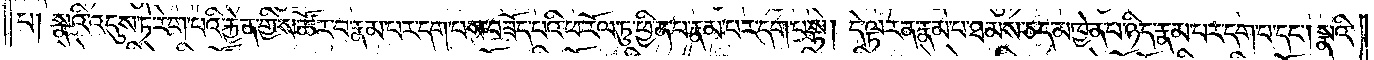པ། སྣའི་འདུས་ཏེ་རེག་པའི་རྐྱེན་གྱིས་ཚོར་བ་རྣམ་པར་དག་པས་བཟོད་པའི་ཕ་རོལ་ཏུ་ཕྱིན་པ་རྣམ་པར་དག་པ་སྟེ། དེ་ལྟར་ན་རྣམ་པ་ཐམས་ཅད་མཁྱེན་པ་ཉིད་རྣམ་པར་དག་པ་དང༌། སྣའི་
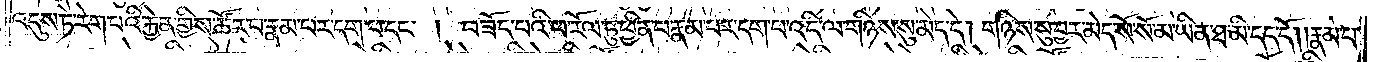འདུས་ཏེ་རེག་པའི་རྐྱེན་གྱིས་ཚོར་བ་རྣམ་པར་དག་པ་དང༌། བཟོད་པའི་ཕ་རོལ་ཏུ་ཕྱིན་པ་རྣམ་པར་དག་པ་འདི་ལ་གཉིས་སུ་མེད་དེ། གཉིས་སུ་བྱར་མེད་སོ་སོ་མ་ཡིན་ཐ་མི་དད་དོ། །རྣམ་པ་
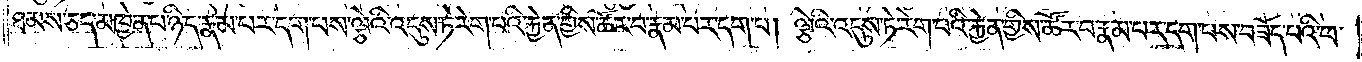ཐམས་ཅད་མཁྱེན་པ་ཉིད་རྣམ་པར་དག་པས་ལྕེའི་འདུས་ཏེ་རེག་པའི་རྐྱེན་གྱིས་ཚོར་བ་རྣམ་པར་དག་པ། ལྕེའི་འདུས་ཏེ་རེག་པའི་རྐྱེན་གྱིས་ཚོར་བ་རྣམ་པར་དག་པས་བཟོད་པའི་ཕ་
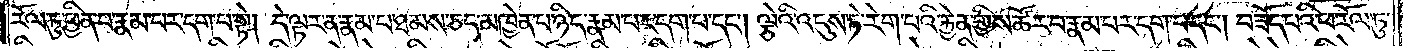རོལ་ཏུ་ཕྱིན་པ་རྣམ་པར་དག་པ་སྟེ། དེ་ལྟར་ན་རྣམ་པ་ཐམས་ཅད་མཁྱེན་པ་ཉིད་རྣམ་པར་དག་པ་དང༌། ལྕེའི་འདུས་ཏེ་རེག་པའི་རྐྱེན་གྱིས་ཚོར་བ་རྣམ་པར་དག་པ་དང༌། བཟོད་པའི་ཕ་རོལ་ཏུ་
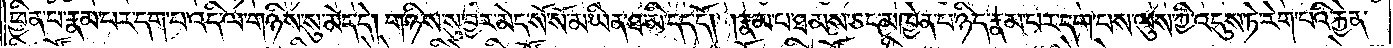ཕྱིན་པ་རྣམ་པར་དག་པ་འདི་ལ་གཉིས་སུ་མེད་དེ། གཉིས་སུ་བྱར་མེད་སོ་སོ་མ་ཡིན་ཐ་མི་དད་དོ། །རྣམ་པ་ཐམས་ཅད་མཁྱེན་པ་ཉིད་རྣམ་པར་དག་པས་ལུས་ཀྱི་འདུས་ཏེ་རེག་པའི་རྐྱེན་
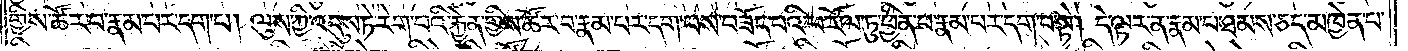གྱིས་ཚོར་བ་རྣམ་པར་དག་པ། ལུས་ཀྱི་འདུས་ཏེ་རེག་པའི་རྐྱེན་གྱིས་ཚོར་བ་རྣམ་པར་དག་པས་བཟོད་པའི་ཕ་རོལ་ཏུ་ཕྱིན་པ་རྣམ་པར་དག་པ་སྟེ། དེ་ལྟར་ན་རྣམ་པ་ཐམས་ཅད་མཁྱེན་པ་
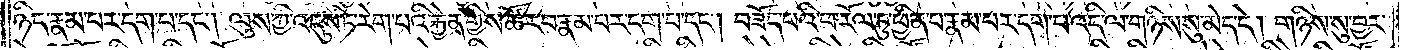ཉིད་རྣམ་པར་དག་པ་དང༌། ལུས་ཀྱི་འདུས་ཏེ་རེག་པའི་རྐྱེན་གྱིས་ཚོར་བ་རྣམ་པར་དག་པ་དང༌། བཟོད་པའི་ཕ་རོལ་ཏུ་ཕྱིན་པ་རྣམ་པར་དག་པ་འདི་ལ་གཉིས་སུ་མེད་དེ། གཉིས་སུ་བྱར་
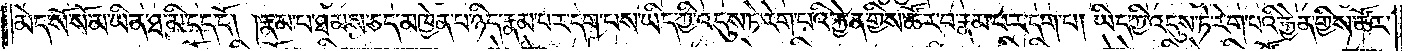མེད་སོ་སོ་མ་ཡིན་ཐ་མི་དད་དོ། །རྣམ་པ་ཐམས་ཅད་མཁྱེན་པ་ཉིད་རྣམ་པར་དག་པས་ཡིད་ཀྱི་འདུས་ཏེ་རེག་པའི་རྐྱེན་གྱིས་ཚོར་བ་རྣམ་པ་དག་པ། ཡིད་ཀྱི་འདུས་ཏེ་རེག་པའི་རྐྱེན་གྱིས་ཚོར་
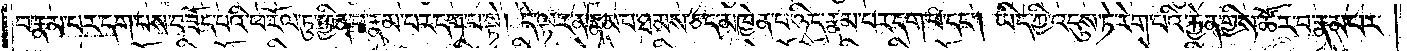བ་རྣམ་པར་དག་པས་བཟོད་པའི་ཕ་རོལ་ཏུ་ཕྱིན་པ་རྣམ་པར་དག་པ་སྟེ། དེ་ལྟར་ན་རྣམ་པ་ཐམས་ཅད་མཁྱེན་པ་ཉིད་རྣམ་པར་དག་པ་དང༌། ཡིད་ཀྱི་འདུས་ཏེ་རེག་པའི་རྐྱེན་གྱིས་ཚོར་བ་རྣམ་པར་
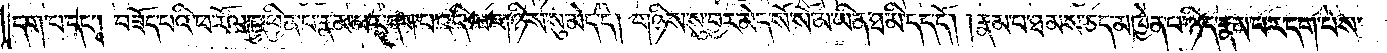དག་པ་དང༌། བཟོད་པའི་ཕ་རོལ་ཏུ་ཕྱིན་པ་རྣམ་པར་དག་པ་འདི་ལ་གཉིས་སུ་མེད་དེ། གཉིས་སུ་བྱར་མེད་སོ་སོ་མ་ཡིན་ཐ་མི་དད་དོ། །རྣམ་པ་ཐམས་ཅད་མཁྱེན་པ་ཉིད་རྣམ་པར་དག་པས་
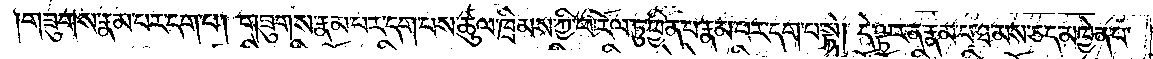གཟུགས་རྣམ་པར་དག་པ། གཟུགས་རྣམ་པར་དག་པས་ཚུལ་ཁྲིམས་ཀྱི་ཕ་རོལ་ཏུ་ཕྱིན་པ་རྣམ་པར་དག་པ་སྟེ། དེ་ལྟར་ན་རྣམ་པ་ཐམས་ཅད་མཁྱེན་པ་
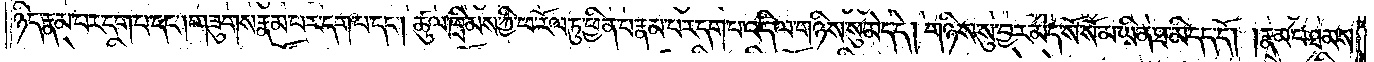ཉིད་རྣམ་པར་དག་པ་དང༌། གཟུགས་རྣམ་པར་དག་པ་དང༌། ཚུལ་ཁྲིམས་ཀྱི་ཕ་རོལ་ཏུ་ཕྱིན་པ་རྣམ་པར་དག་པ་འདི་ལ་གཉིས་སུ་མེད་དེ། གཉིས་སུ་བྱར་མེད་སོ་སོ་མ་ཡིན་ཐ་མི་དད་དོ། །རྣམ་པ་ཐམས་
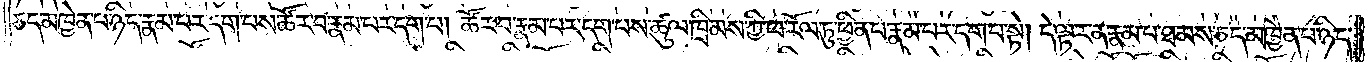ཅད་མཁྱེན་པ་ཉིད་རྣམ་པར་དག་པས་ཚོར་བ་རྣམ་པར་དག་པ། ཚོར་བ་རྣམ་པར་དག་པས་ཚུལ་ཁྲིམས་ཀྱི་ཕ་རོལ་ཏུ་ཕྱིན་པ་རྣམ་པར་དག་པ་སྟེ། དེ་ལྟར་ན་རྣམ་པ་ཐམས་ཅད་མཁྱེན་པ་ཉིད་
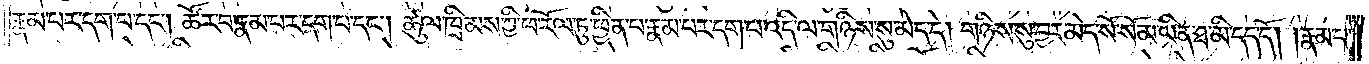རྣམ་པར་དག་པ་དང༌། ཚོར་བ་རྣམ་པར་དག་པ་དང༌། ཚུལ་ཁྲིམས་ཀྱི་ཕ་རོལ་ཏུ་ཕྱིན་པ་རྣམ་པར་དག་པ་འདི་ལ་གཉིས་སུ་མེད་དེ། གཉིས་སུ་བྱར་མེད་སོ་སོ་མ་ཡིན་ཐ་མི་དད་དོ། །རྣམ་པ་
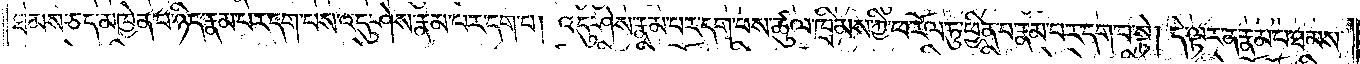ཐམས་ཅད་མཁྱེན་པ་ཉིད་རྣམ་པར་དག་པས་འདུ་ཤེས་རྣམ་པར་དག་པ། འདུ་ཤེས་རྣམ་པར་དག་པས་ཚུལ་ཁྲིམས་ཀྱི་ཕ་རོལ་ཏུ་ཕྱིན་པ་རྣམ་པར་དག་པ་སྟེ། དེ་ལྟར་ན་རྣམ་པ་ཐམས་
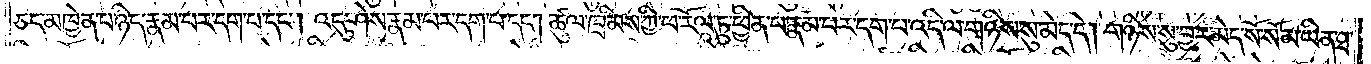ཅད་མཁྱེན་པ་ཉིད་རྣམ་པར་དག་པ་དང༌། འདུ་ཤེས་རྣམ་པར་དག་པ་དང༌། ཚུལ་ཁྲིམས་ཀྱི་ཕ་རོལ་ཏུ་ཕྱིན་པ་རྣམ་པར་དག་པ་འདི་ལ་གཉིས་སུ་མེད་དེ། གཉིས་སུ་བྱར་མེད་སོ་སོ་མ་ཡིན་ཐ་
